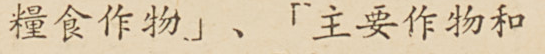糧食作物」、「主要作物和
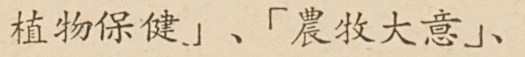植物保健」、「農牧大意」、
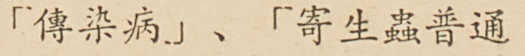「傳染病」、「寄生蟲普通
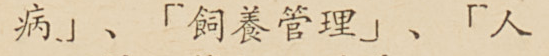病」、「飼養管理」、「人
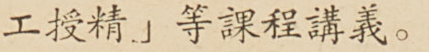工授精」等課程講義。
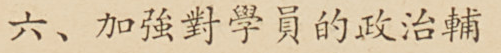六、加強對學員的政治輔
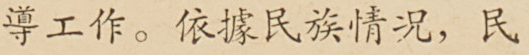導工作。依據民族情况，民
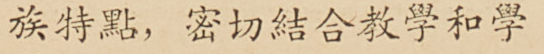族特點，密切結合教學和學
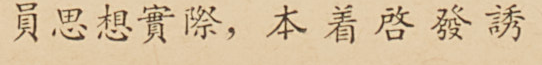員思想實際，本着啓發誘
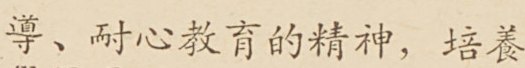導、耐心教育的精神，培養
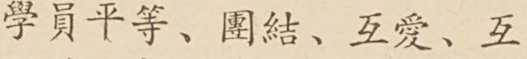學員平等、團結、互愛、互
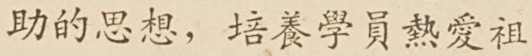助的思想，培養學員熱愛祖
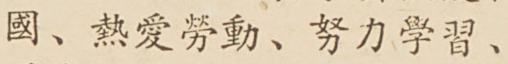國、熱愛勞動、努力學習、
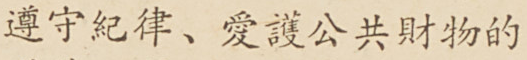遵守紀律、愛護公共財物的
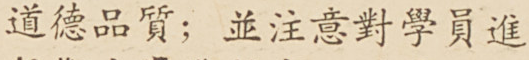道德品質；並注意對學員進
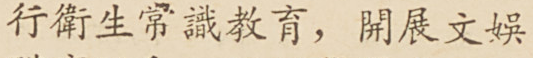行衛生常識敎育，開展文娛
